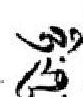ཉི་ཤུ་
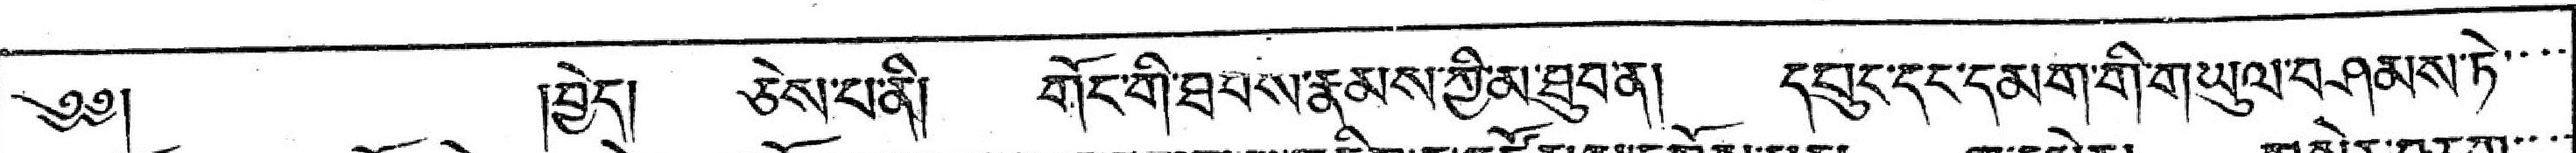༄༅། །བྱེད། ཅེས་པ་ནི། གོང་གི་ཐབས་རྣམས་ཀྱི་མ་ཐུབ་ན། དཔུང་དང་དམག་གི་གཡུལ་བཤམས་ཏེ་་་་
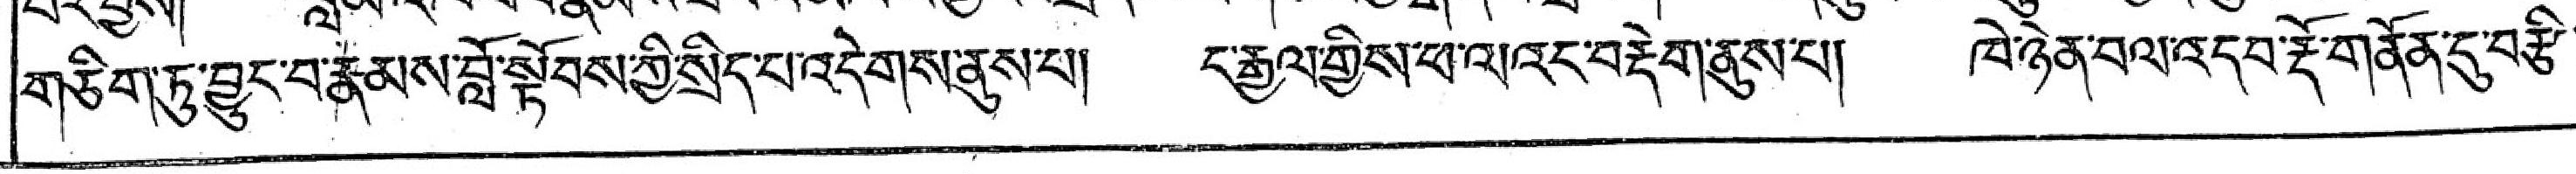གཅིག་ཏུ་བྱུང་བ་རྣམས་བློ་སྟོབས་ཀྱི་སྲིད་པ་འདེགས་ནུས་པ། ང་རྒྱལ་གྱིས་ཕ་ལའང་བརྡེག་ནུས་པ། ཁེ་ཉེན་བལ་འདབ་རྡོ་གནོན་དུ་བརྩི་
